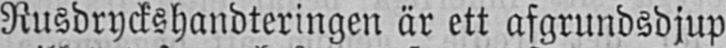Rusdryckshandteringen är ett afgrundsdjup
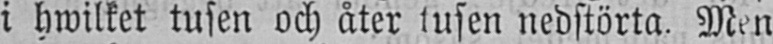i hwilket tusen och åter tusen nedstörta. Men
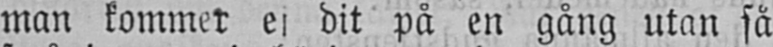man kommer ej dit på en gång utan så
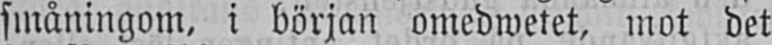småningom, i början omedwetet, mot det
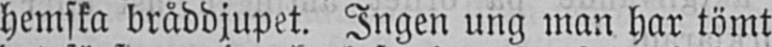hemska bråddjupet. Ingen ung man har tömt
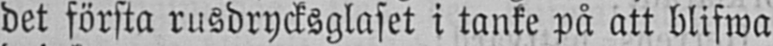det första rusdrycksglaset i tanke på att blifwa
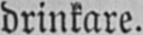drinkare.
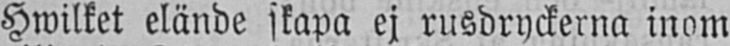Hwilket elände skapa ej rusdryckerna inom
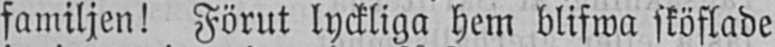familjen! Förut lyckliga hem blifwa sköflade
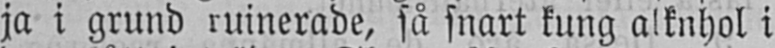ja i grund ruinerade, så snart kung alkohol i
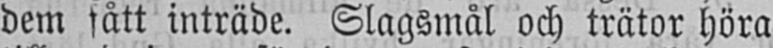dem fått inträde. Slagsmål och trätor höra
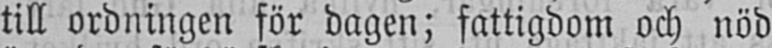till ordningen för dagen; fattigdom och nöd
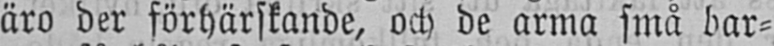äro der förhärskande, och de arma små bar-
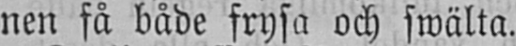nen få både frysa och swälta.
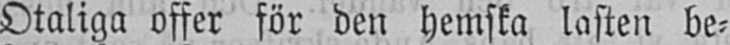Otaliga offer för den hemska lasten be-
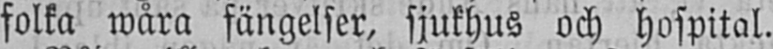folka wåra fängelser, sjukhus och hospital.
